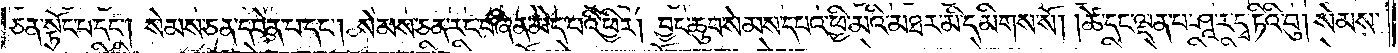ཅན་སྟོང་པ་དང༌། སེམས་ཅན་དབེན་པ་དང༌། སེམས་ཅན་རང་བཞིན་མེད་པའི་ཕྱིར། བྱང་ཆུབ་སེམས་དཔའ་ཕྱི་མའི་མཐར་མི་དམིགས་སོ། ། ཚེ་དང་ལྡན་པ་ཤཱ་རདྭ་ཏིའི་བུ། སེམས་
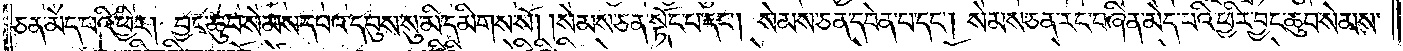ཅན་མེད་པའི་ཕྱིར། བྱང་ཆུབ་སེམས་དཔའ་དབུས་སུ་མི་དམིགས་སོ། །སེམས་ཅན་སྟོང་པ་དང༌། སེམས་ཅན་དབེན་པ་དང༌། སེམས་ཅན་རང་བཞིན་མེད་པའི་ཕྱིར་བྱང་ཆུབ་སེམས་
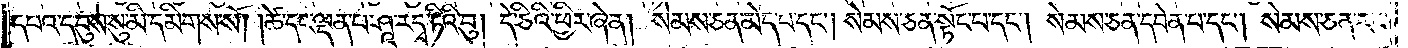དཔའ་དབུས་སུ་མི་དམིགས་སོ། །ཚེ་དང་ལྡན་པ་ཤཱ་རདྭ་ཏིའི་བུ། དེ་ཅིའི་ཕྱིར་ཞེ་ན། སེམས་ཅན་མེད་པ་དང༌། སེམས་ཅན་སྟོང་པ་དང༌། སེམས་ཅན་དབེན་པ་དང༌། སེམས་ཅན་རང་
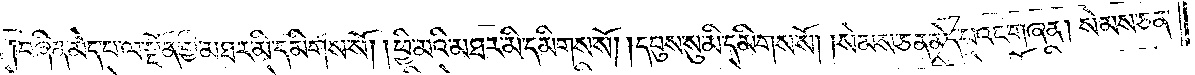བཞིན་མེད་པ་ལ་སྔོན་གྱི་མཐར་མི་དམིགས་སོ། །ཕྱི་མའི་མཐར་མི་དམིགས་སོ། །དབུས་སུ་མི་དམིགས་སོ། །སེམས་ཅན་མེད་པའང་གཞན། སེམས་ཅན་
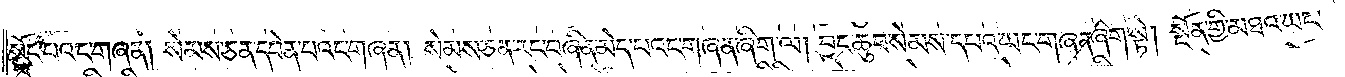སྟོང་པའང་གཞན། སེམས་ཅན་དབེན་པའང་གཞན། སེམས་ཅན་རང་བཞིན་མེད་པའང་གཞན་ཞིག་ལ། བྱང་ཆུབ་སེམས་དཔའ་ཡང་གཞན་ཞིག་སྟེ། སྔོན་གྱི་མཐའ་ཡང་
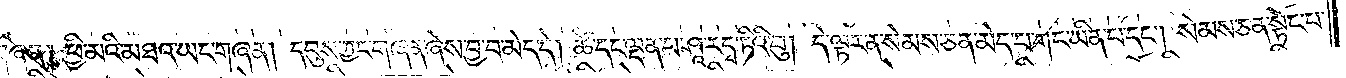གཞན། ཕྱི་མའི་མཐའ་ཡང་གཞན། དབུས་ཀྱང་གཞན་ཞེས་བྱ་བ་མེད་དེ། ཚེ་དང་ལྡན་པ་ཤཱ་རདྭ་ཏིའི་བུ། དེ་ལྟར་ན་སེམས་ཅན་མེད་པ་གང་ཡིན་པ་དང༌། སེམས་ཅན་སྟོང་པ་
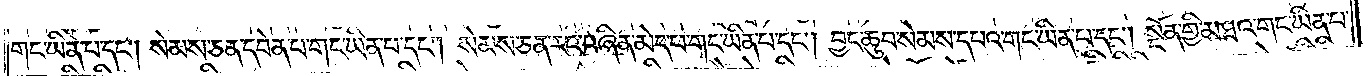གང་ཡིན་པ་དང༌། སེམས་ཅན་དབེན་པ་གང་ཡིན་པ་དང༌། སེམས་ཅན་རང་བཞིན་མེད་པ་གང་ཡིན་པ་དང༌། བྱང་ཆུབ་སེམས་དཔའ་གང་ཡིན་པ་དང༌། སྔོན་གྱི་མཐའ་གང་ཡིན་པ་
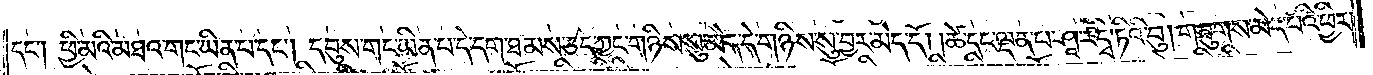དང༌། ཕྱི་མའི་མཐའ་གང་ཡིན་པ་དང༌། དབུས་གང་ཡིན་པ་དེ་དག་ཐམས་ཅད་ཀྱང་གཉིས་སུ་མེད་དེ་གཉིས་སུ་བྱར་མེད་དོ། །ཚེ་དང་ལྡན་པ་ཤཱ་རདྭ་ཏིའི་བུ། གཟུགས་མེད་པའི་ཕྱིར།
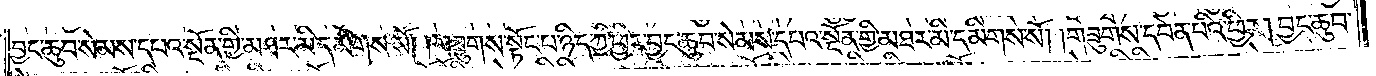བྱང་ཆུབ་སེམས་དཔའ་སྔོན་གྱི་མཐར་མི་དམིགས་སོ། །གཟུགས་སྟོང་པ་ཉིད་ཀྱི་ཕྱིར་བྱང་ཆུབ་སེམས་དཔའ་སྔོན་གྱི་མཐར་མི་དམིགས་སོ། །གཟུགས་དབེན་པའི་ཕྱིར། བྱང་ཆུབ་
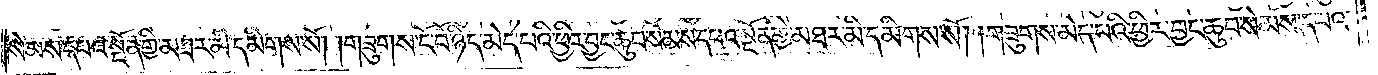སེམས་དཔའ་སྔོན་གྱི་མཐར་མི་དམིགས་སོ། །གཟུགས་ངོ་བོ་ཉིད་མེད་པའི་ཕྱིར་བྱང་ཆུབ་སེམས་དཔའ་སྔོན་གྱི་མཐར་མི་དམིགས་སོ། ། གཟུགས་མེད་པའི་ཕྱིར་བྱང་ཆུབ་སེམས་དཔའ་
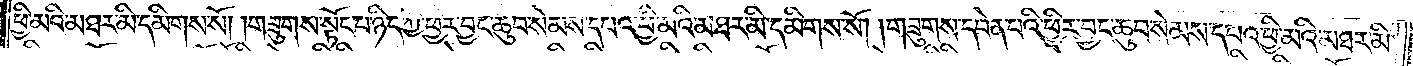ཕྱི་མའི་མཐར་མི་དམིགས་སོ། །གཟུགས་སྟོང་པ་ཉིད་ཀྱི་ཕྱིར་བྱང་ཆུབ་སེམས་དཔའ་ཕྱི་མའི་མཐར་མི་དམིགས་སོ། །གཟུགས་དབེན་པའི་ཕྱིར་བྱང་ཆུབ་སེམས་དཔའ་ཕྱི་མའི་མཐར་མི་
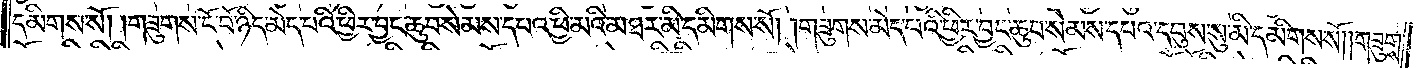དམིགས་སོ། །གཟུགས་ངོ་བོ་ཉིད་མེད་པའི་ཕྱིར་བྱང་ཆུབ་སེམས་དཔའ་ཕྱི་མའི་མཐར་མི་དམིགས་སོ། །གཟུགས་མེད་པའི་ཕྱིར་བྱང་ཆུབ་སེམས་དཔའ་དབུས་སུ་མི་དམིགས་སོ། །གཟུགས་
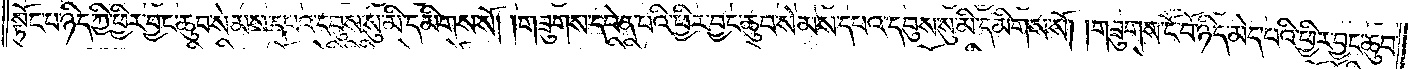སྟོང་པ་ཉིད་ཀྱི་ཕྱིར་བྱང་ཆུབ་སེམས་དཔའ་དབུས་སུ་མི་དམིགས་སོ། །གཟུགས་དབེན་པའི་ཕྱིར་བྱང་ཆུབ་སེམས་དཔའ་དབུས་སུ་མི་དམིགས་སོ། །གཟུགས་ངོ་བོ་ཉིད་མེད་པའི་ཕྱིར་བྱང་ཆུབ་
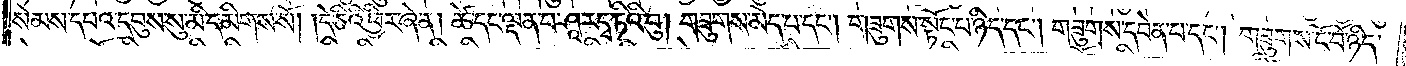སེམས་དཔའ་དབུས་སུ་མི་དམིགས་སོ། །དེ་ཅིའི་ཕྱིར་ཞེ་ན། ཚེ་དང་ལྡན་པ་ཤཱ་རདྭ་ཏིའི་བུ། གཟུགས་མེད་པ་དང༌། གཟུགས་སྟོང་བ་ཉིད་དང༌། གཟུགས་དབེན་པ་དང༌། གཟུགས་ངོ་བོ་ཉིད་
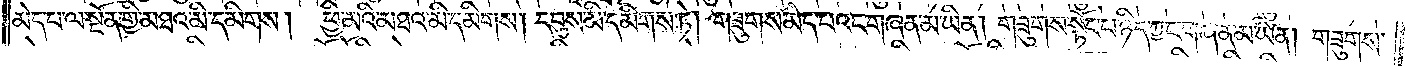མེད་པ་ལ་སྔོན་གྱི་མཐའ་མི་དམིགས། ཕྱི་མའི་མཐའ་མི་དམིགས། དབུས་མི་དམིགས་ཏེ། གཟུགས་མེད་པའང་གཞན་མ་ཡིན། གཟུགས་སྟོང་པ་ཉིད་ཀྱང་གཞན་མ་ཡིན། གཟུགས་
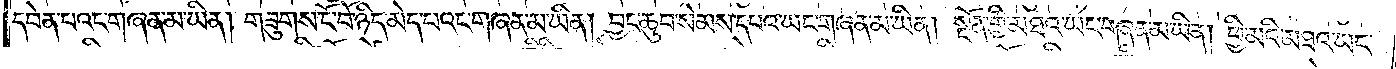དབེན་པའང་གཞན་མ་ཡིན། གཟུགས་ངོ་བོ་ཉིད་མེད་པའང་གཞན་མ་ཡིན། བྱང་ཆུབ་སེམས་དཔའ་ཡང་གཞན་མ་ཡིན། སྔོན་གྱི་མཐའ་ཡང་གཞན་མ་ཡིན། ཕྱི་མའི་མཐའ་ཡང་
